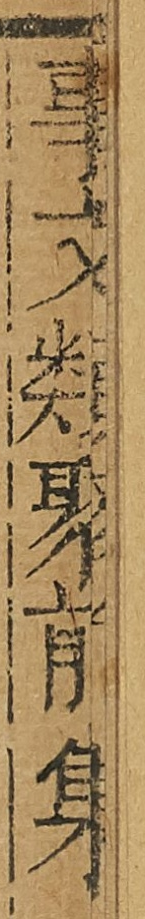事文類聚前集
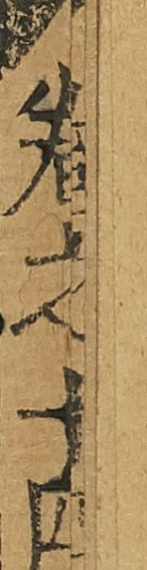卷之十四
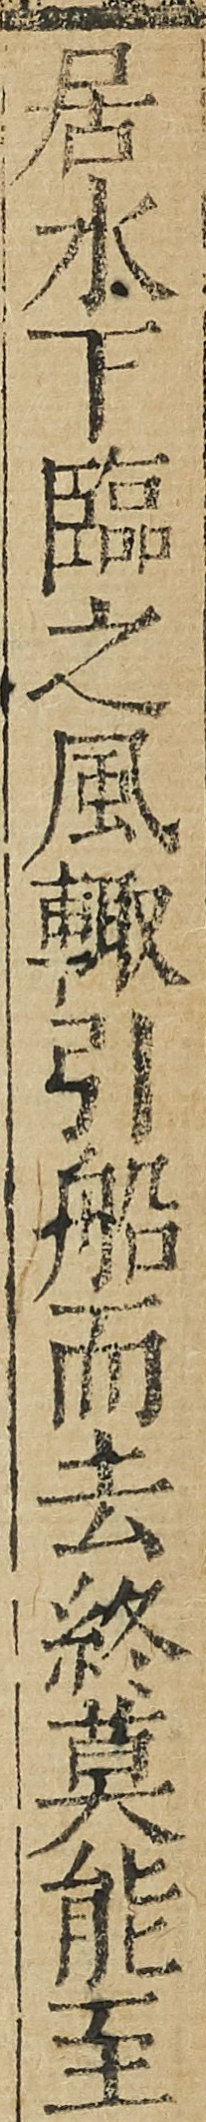居水下臨之風輙引船而去終莫能至
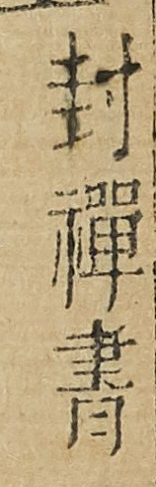封禪書
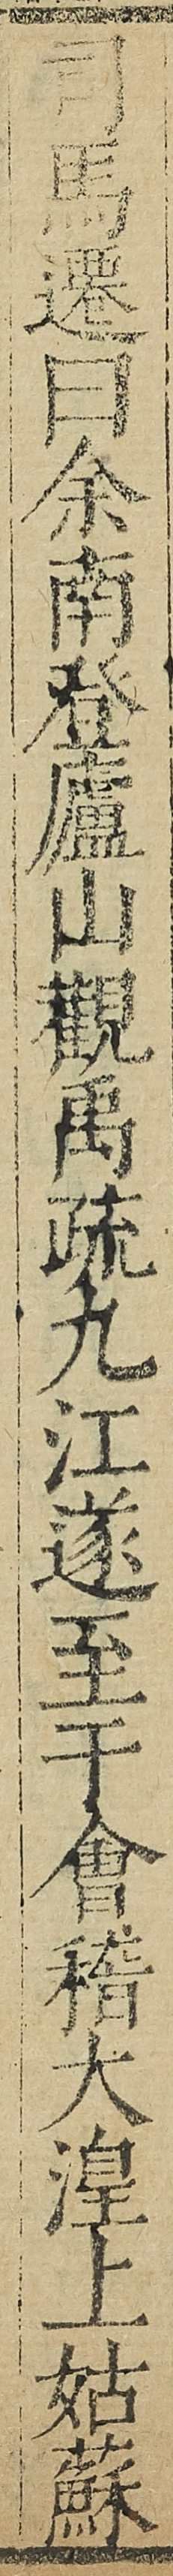司馬遷曰余南登廬山觀禹疏九江遂至于會稽大湟上姑蘇
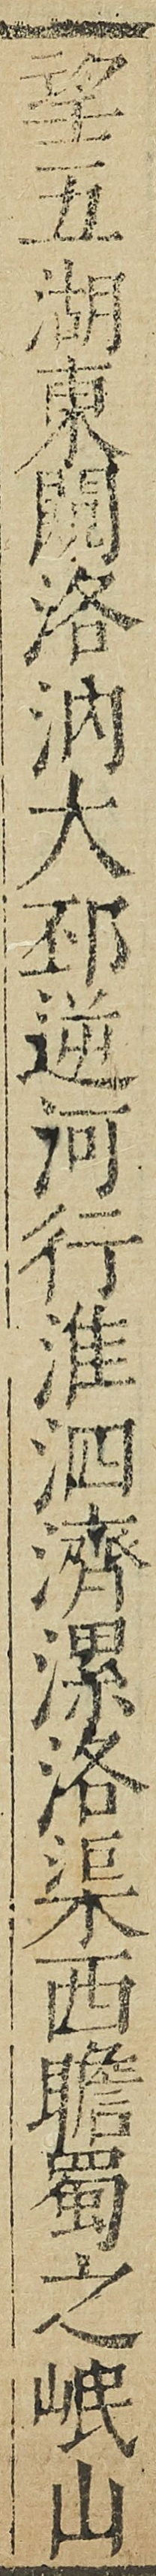望五湖東閣洛汭大郅逆河行淮泗濟漯洛渠西瞻蜀之岷山
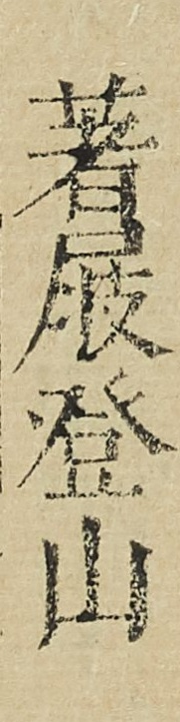著屐登山
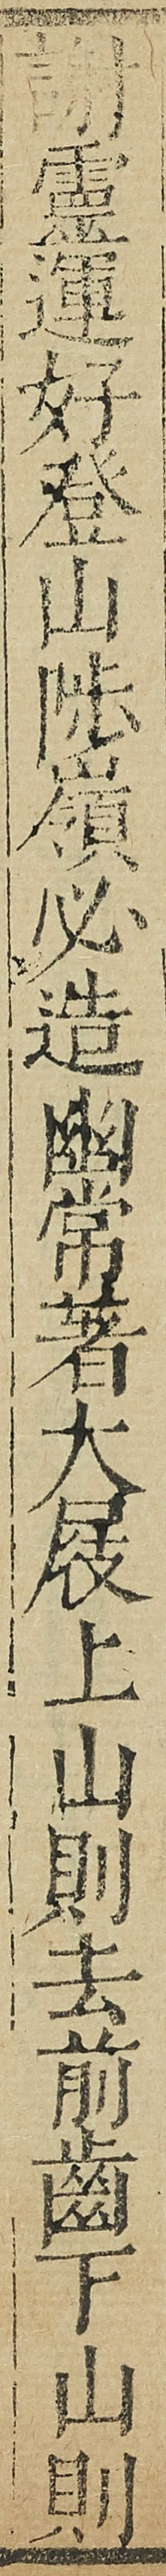謝靈運好登山陆嶺必造幽常著大屐上山則去前齒下山則
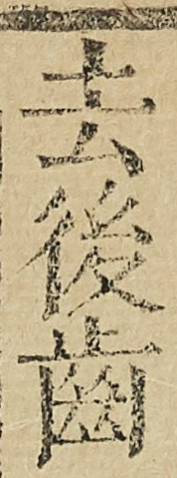去後齒
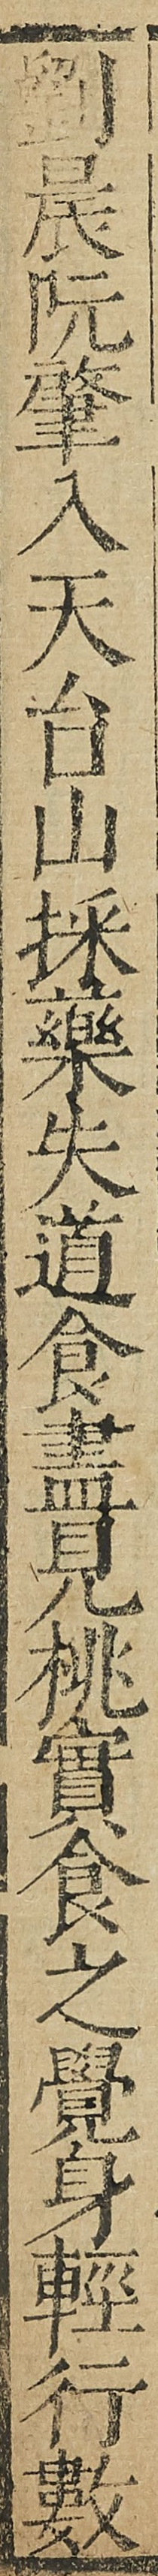劉晨阮肇入天台山採藥失道食盡見桃實食之覺身輕行數
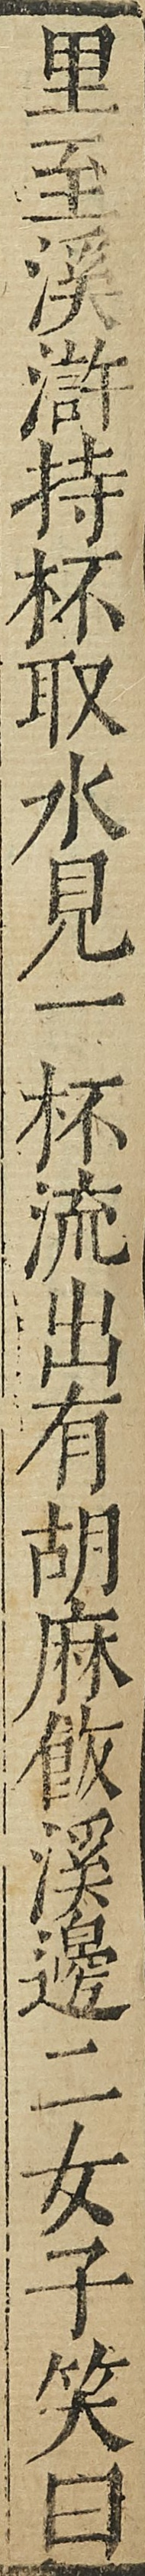里至溪滸持杯取水见一杯流出有胡麻飯溪邊二女子笑曰
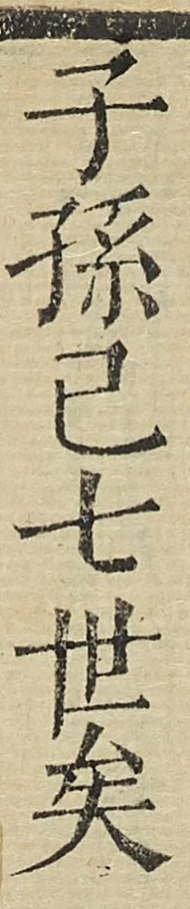子孫已七世矣
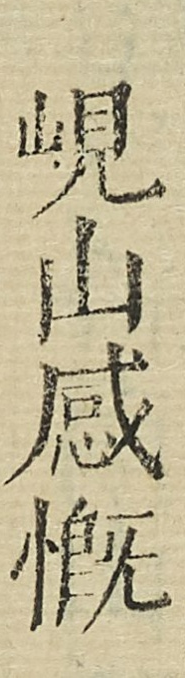峴山感慨
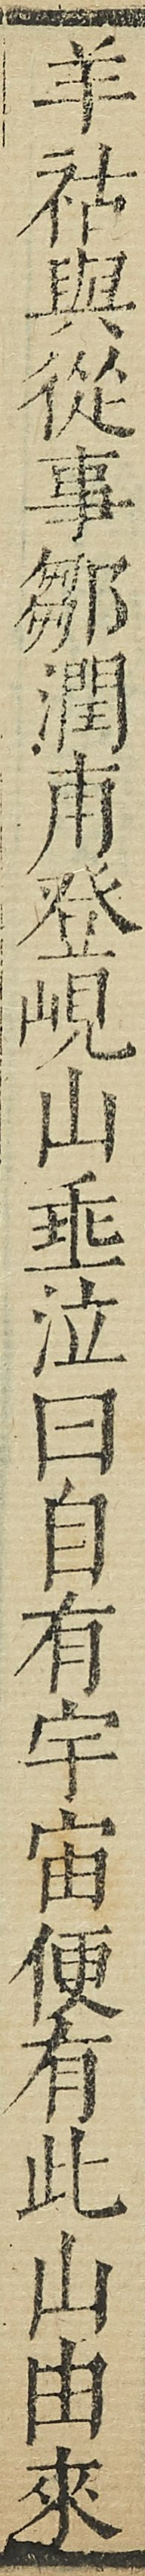羊祜與從事鄒潤甫登岘山垂泣曰自有宇宙便有此山由來
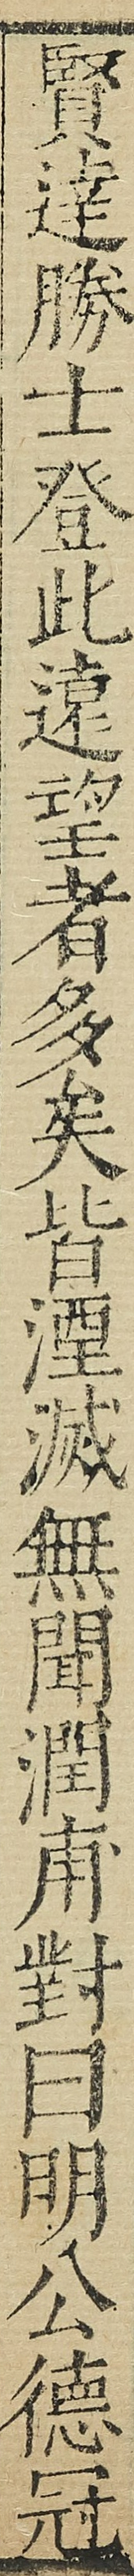賢達勝士登此遠望者多矣皆湮滅無聞潤甫對曰明公德冠
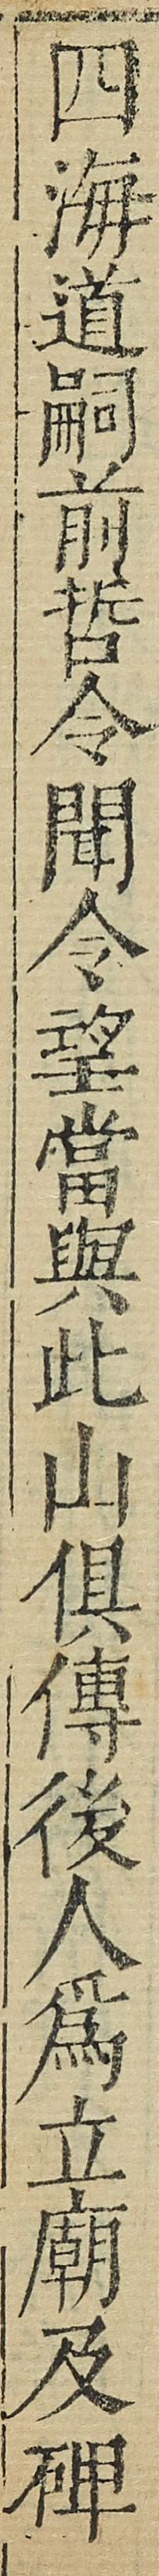四海道嗣前哲令聞令望當與此山俱傳後人爲立廟及碑
